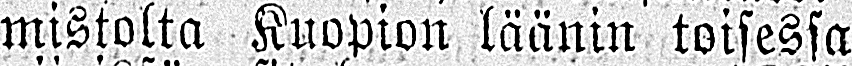mistolta Kuopion läänin toisessa
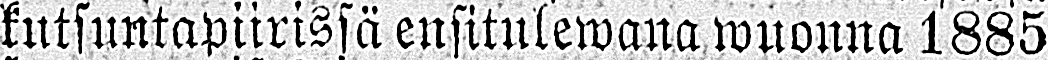kutsuntapiirissä ensitulewana wuonna 1885
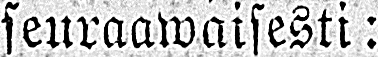seuraawaisesti:
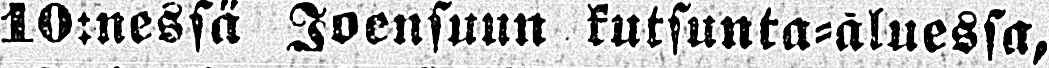10:nessä Joensuun kutsunta-aluessa,
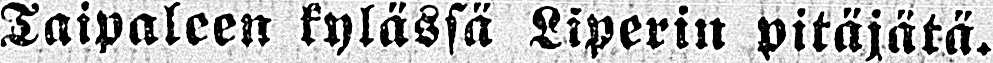Taipaleen kylässä Liperin pitäjätä.
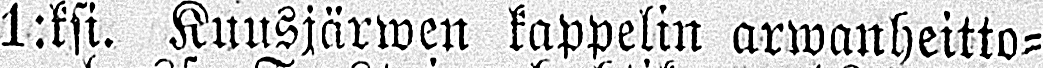1:ksi. Kuusjärwen kappelin arwanheitto-
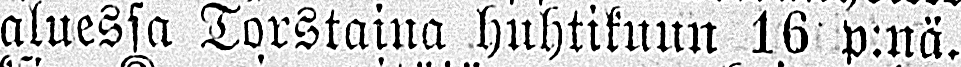aluessa Torstaina huhtikuun 16 p:nä.
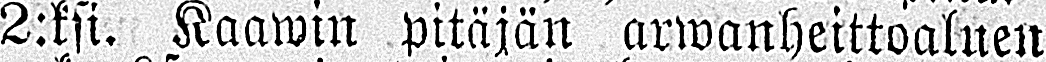2:ksi. Kaawin pitäjän arwanheittoaluen
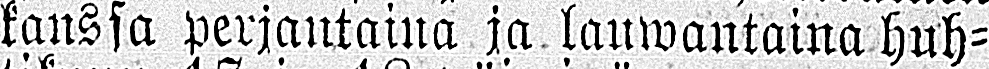kanssa perjantaina ja lauwantaina huh-
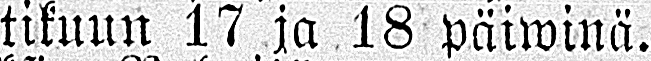tikuun 17 ja 18 päiwinä.
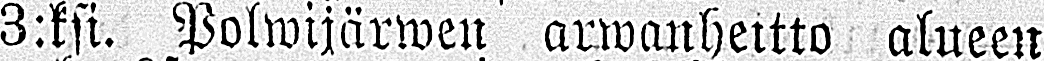3:ksi. Polwijärwen arwanheitto alueen
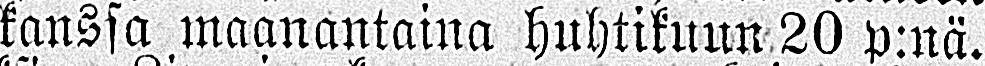kanssa maanantaina huhtikuun 20 p:nä.
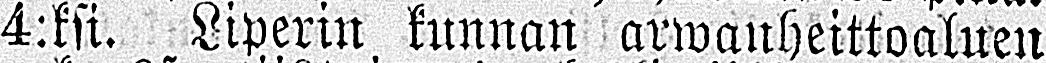4:ksi. Liperin kunnan arwanheittoaluen
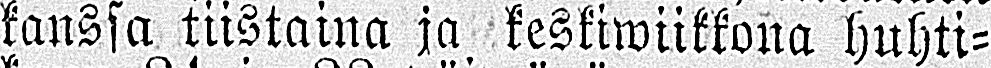kanssa tiistaina ja keskiwiikkona huhti-
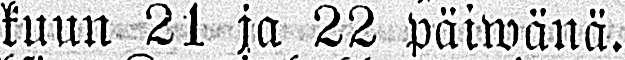kuun 21 ja 22 päiwänä.
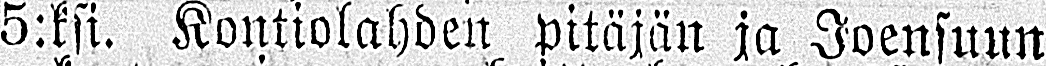5:ksi. Kontiolahden pitäjän ja Joensuun
